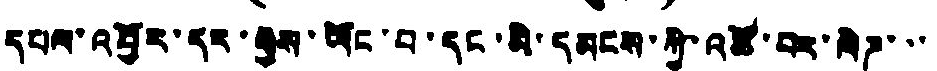དཔལ་འབྱོར་དར་རྒྱས་ཡོང་བ་དང་མི་དམངས་ཀྱི་འཚོ་བར་ལེཌ་་་
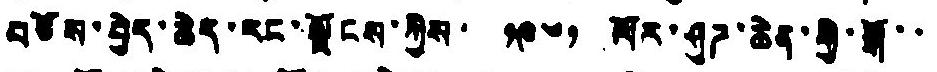བཅོས་བྱེར་ཆེད་རང་ལྗོངས་ཀྱིས་ ༡༩༦༡ ལོར་ཤུཌ་ཆེན་གྱི་སྒོ་་
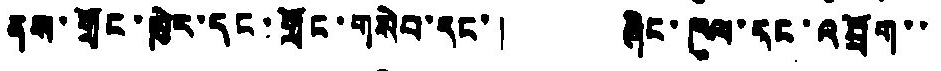ནས་གྲོང་ཁྱེར་དང་གློང་གསེབ་དང་། ཞིང་ཁུལ་དང་འབྲོག་་
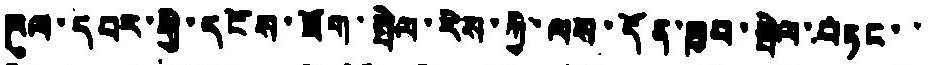ཁུལ་དབར་གྱི་དངོས་ཟོག་སྤེལ་རེས་ཀྱི་ལས་དོན་ཁྱབ་སྤེལ་བཏང་་
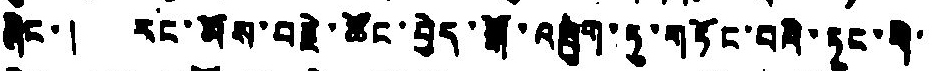ཞིང་། རང་མོས་བརྗེ་ཚོང་བྱེད་སྒོ་འཁྲུག་ཏུ་གཏོང་བའི་ཏང་གི་
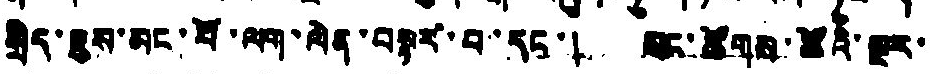སྲིད་ཇུས་མང་པོ་ལག་ལེན་བསྟར་བ་དང་། མང་ཚོགས་ཚོའི་ལྔར་
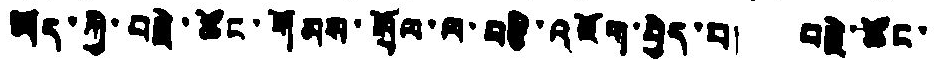ཡོད་ཀྱི་བཞི་ཚོང་གོམས་སྲོལ་ལ་བརྩི་འཇོག་བྱེད་པ། བརྗེ་ཚོང་
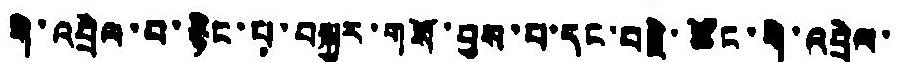གི་འབྲེལ་བ་རྙིང་པ་བསྐྱར་གསོ་བྱས་པ་དང་བརྗེ་ཚོང་གི་འབྲེལ་
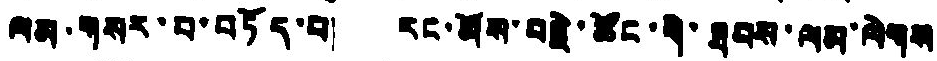ལམ་གསར་བ་བཏོད་པ། རང་མོས་བརྗེ་ཚོང་གི་ཐབས་ལམ་ལེགས
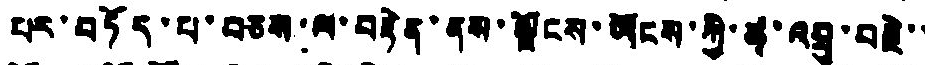པར་བཏོད་པ་བཅས་ལ་བརྟེན་ནས་ལྗོངས་ཡོངས་ཀྱི་ཚྭ་འབྲུ་བརྗེ་་
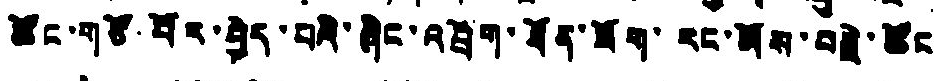ཚོང་གཙོ་བོར་བྱེད་པའི་ཞིང་འབྲོག་ཐོན་ཟོག་རང་མོས་བརྗེ་ཚོང
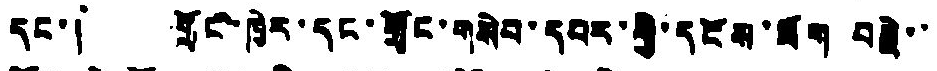དང་། གྲོང་ཁྱེར་དང་གྲོང་གསེབ་དབར་གྱི་དངོས་ཟོག བརྗེ་་
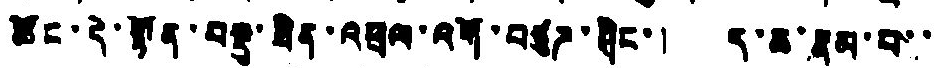ཚོང་དེ་སྟན་བསྡུ་ཟིན་འཕྲལ་འགོ་བཙུཌ་ཤིང་། ད་ཆ་རྣམ་པ་་
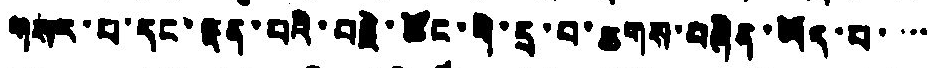གསར་པ་དང་ལྡན་པའི་བརྗེ་ཚོང་གི་དྲ་བ་ཆགས་བཞིན་ཡོད་པ་་་་
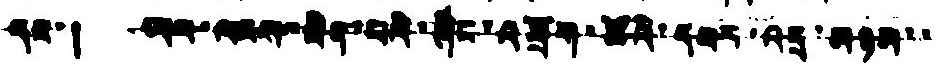དང་། ཡར་ལངས་ཟིན་པའི་ཞིང་འབྲོག་ཚོའི་དབར་འདྲ་མཉམ་་
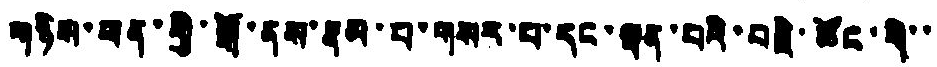གཉིས་ཕན་གྱི་སྒོ་ནས་རྣམ་པ་གསར་པ་དང་ལྡན་པའི་བརྗེ་ཚོང་གི་་
